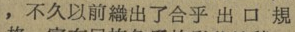，不久以前織出了合乎 出 口 規
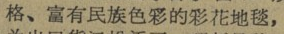格、富有民族色彩的彩花地毯，
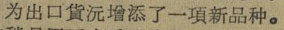为出口貨沅增添了一項新品种。
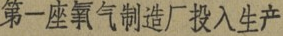第一座氧气制造厂投入生产
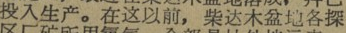投入生产。在这以前，柴达木盆地各探
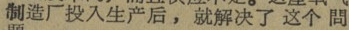制造厂投入生产后，就解决了 这个 問
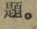題。
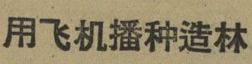用飞机播种造林
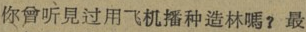你曾听見过用飞机播种造林嗎？最
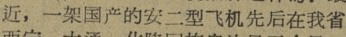近，一架国产的安二型飞机先后在我省
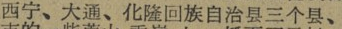西宁、大通、化隆回族自治县三个县、
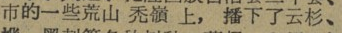市的一些荒山 秃嶺 上，播下了云杉、
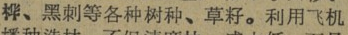桦、黑刺等各种树种、草籽。利用飞机
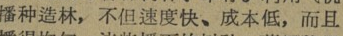播种造林，不但速度快、成本低，而且
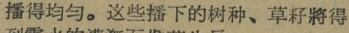播得均匀。这些播下的树种、草籽將得
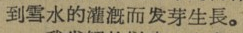到雪水的灌溉而发芽生長。
